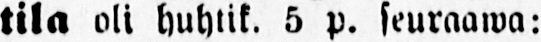tila oli huhtik. 5 p. seuraawa:
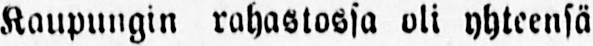Kaupungin rahastossa oli yhteensä
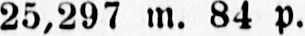25,297 m. 84 P.
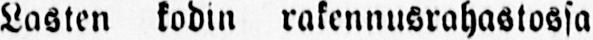Lasten todin rakennusrahastossa
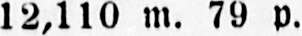12,110 w. 79 p.
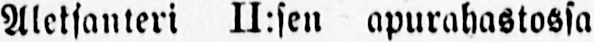Aletsanteri II:sen apurahastossa
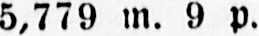5,779 m. 9 p.
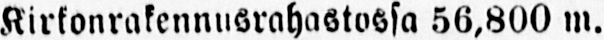Kirkonrakennusrahastossa 56,800 m.
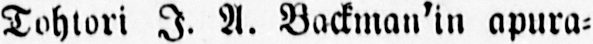Tohtori I. A. Backman'in apura-
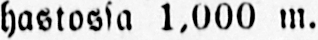hastossa 1,000 m.
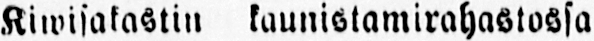Kiwisakastin kaunistamirahastossa
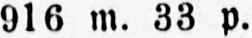916 m. 33 p.
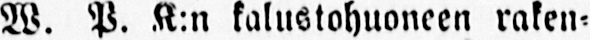W. P. K:n Kalustohuoneen raken-
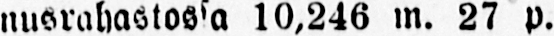nusrahastossa 10,246 m. 27 p.
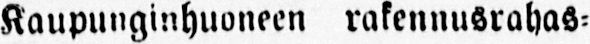Kaupunginhuoneen rakennusrahas-
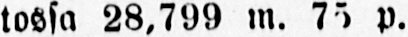tossa 28,799 m. 75 p.
